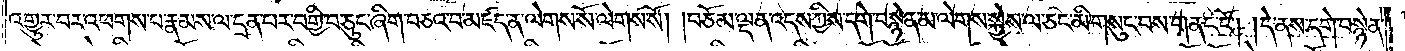འགྱུར་བར་འཕགས་པ་རྣམས་ལ་དྲན་པར་བགྱི་བ་ཅུང་ཞིག་བཅའ་བ་མཛད་ན་ལེགས་སོ་ལེགས་སོ། །བཅོམ་ལྡན་འདས་ཀྱིས་དགེ་བསྙེན་མ་ལེགས་སྐྱེས་ལ་ཅང་མི་གསུང་བས་གནང་ངོ༌། །དེ་ནས་དགེ་བསྙེན་
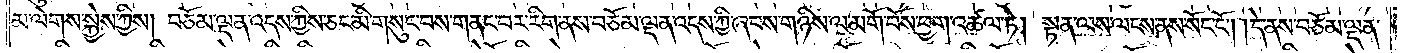མ་ལེགས་སྐྱེས་ཀྱིས། བཅོམ་ལྡན་འདས་ཀྱིས་ཅང་མི་གསུང་བས་གནང་བར་རིག་ནས་བཅོམ་ལྡན་འདས་ཀྱི་ཞབས་གཉིས་ལ་མགོ་བོས་ཕྱག་འཚལ་ཏེ། སྟན་ལས་ལངས་ནས་སོང་ངོ༌། །དེ་ནས་བཅོམ་ལྡན་
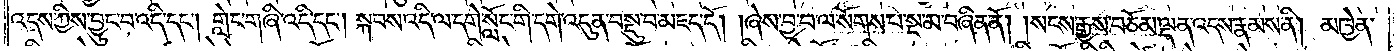འདས་ཀྱིས་བྱུང་བ་འདི་དང༌། གླེང་གཞི་འདི་དང༌། སྐབས་འདི་ལ་དགེ་སློང་གི་དགེ་འདུན་བསྡུ་བ་མཛད་དོ། །ཞེས་བྱ་བ་ལ་སོགས་པ་སྔ་མ་བཞིན་ནོ། །སངས་རྒྱས་བཅོམ་ལྡན་འདས་རྣམས་ནི། མཁྱེན་
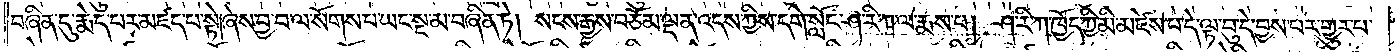བཞིན་དུ་རྨེད་པར་མཛད་པ་སྟེ། ཞེས་བྱ་བ་ལ་སོགས་པ་ཡང་སྔ་མ་བཞིན་ཏེ། སངས་རྒྱས་བཅོམ་ལྡན་འདས་ཀྱིས་དགེ་སློང་ཤ་རི་ཀ་ལ་རྨས་པ། ཤ་རི་ཀ་ཁྱོད་ཀྱི་མི་མཛེས་པ་དེ་ལྟ་བུ་དེ་བྱས་པར་གྱུར་པ་
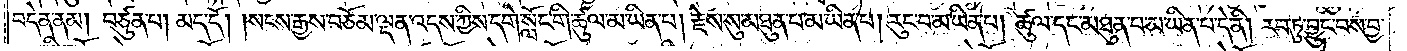བདེན་ནམ། བཙུན་པ། མད་དོ། །སངས་རྒྱས་བཅོམ་ལྡན་འདས་ཀྱིས་དགེ་སློང་གི་ཚུལ་མ་ཡིན་པ། རྗེས་སུ་མཐུན་པ་མ་ཡིན་པ། རུང་བ་མ་ཡིན་པ། ཚུལ་དང་མཐུན་པ་མ་ཡིན་པ་དེ་ནི། རབ་ཏུ་བྱུང་བས་བྱ་
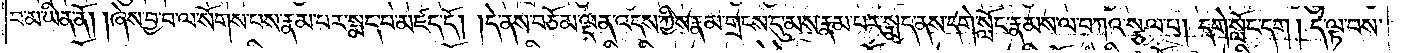བ་མ་ཡིན་ནོ། །ཞེས་བྱ་བ་ལ་སོགས་པས་རྣམ་པར་སྨད་པ་མཛད་དོ། །དེ་ནས་བཅོམ་ལྡན་འདས་ཀྱིས་རྣམ་གྲངས་དུ་མས་རྣམ་པར་སྨད་ནས་དགེ་སློང་རྣམས་ལ་བཀའ་སྩལ་པ། དགེ་སློང་དག །དེ་ལྟ་བས་
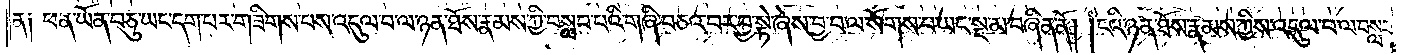ན༏ ཕན་ཡོན་བཅུ་ཡང་དག་པར་གཟིགས་པས་འདུལ་བ་ལ་ཉན་ཐོས་རྣམས་ཀྱི་བསླབ་པའི་གཞི་བཅའ་བར་བྱ་སྟེ་ཞེས་བྱ་བ་ལ་སོགས་པ་ཡང་སྔ་མ་བཞིན་ནོ། །ངའི་ཉན་ཐོས་རྣམས་ཀྱིས་འདུལ་བ་ལ་བསླབ་
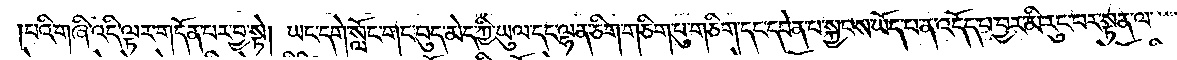པའི་གཞི་འདི་ལྟར་གདོན་པར་བྱ་སྟེ། ཡང་དགེ་སློང་གང་བུ་མེད་ཀྱི་ཡུལ་དང་ལྷན་ཅིག་གཅིག་པུ་གཅིག་དང་དབེན་པ་སྐྱབས་ཡོད་པ་ན་འདོད་པ་བྱར་མི་རུང་བར་སྟན་ལ་
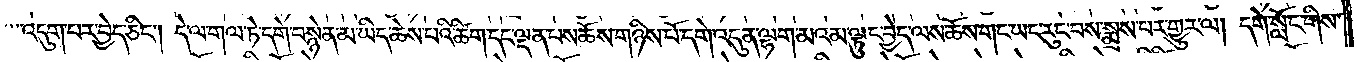འདུག་པར་བྱེད་ཅིང༌། དེ་ལ་གལ་ཏེ་དགེ་བསྙེན་མ་ཡིད་ཆེས་པའི་ཚིག་དང་ལྡན་པས་ཆོས་གཉིས་པོ་དགེ་འདུན་ལྷག་མའམ་ལྟུང་བྱེད་ལས་ཆོས་གང་ཡང་རུང་བས་སྨྲས་པར་གྱུར་ལ། དགེ་སློང་གིས་
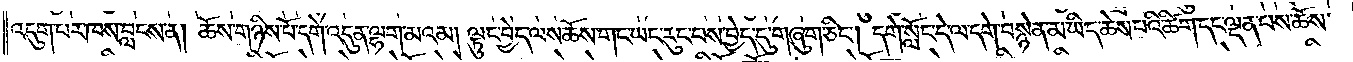འདུག་པར་ཁས་བླངས་ན། ཆོས་གཉིས་པོ་དགེ་འདུན་ལྷག་མའམ། ལྟུང་བྱེད་ལས་ཆོས་གང་ཡང་རུང་བས་བྱེད་དུ་གཞུག་ཅིང༌། དགེ་སློང་དེ་ལ་དགེ་བསྙེན་མ་ཡིད་ཆེས་པའི་ཚིག་དང་ལྡན་པས་ཆོས་
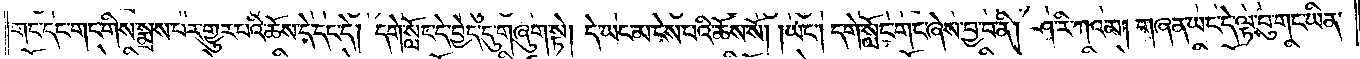གང་དང་གང་གིས་སྨྲས་པར་གྱུར་པའི་ཆོས་དེ་དང་དེ། དགེ་སློང་དེ་བྱེད་དུ་གཞུག་སྟེ། དེ་ཡང་མ་ངེས་པའི་ཆོས་སོ། །ཡང༌། དགེ་སློང་གང་ཞེས་བྱ་བ་ནི། ཤ་རི་ཀའམ། གཞན་ཡང་དེ་ལྟ་བུ་གང་ཡིན་
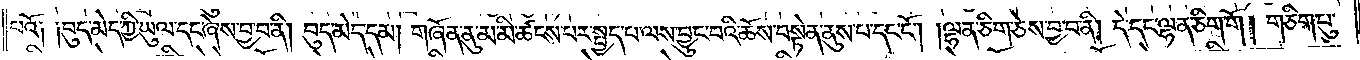བའོ༑ ༑བུད་མེད་ཀྱི་ཡུལ་དང་ཞེས་བྱ་བ་ནི། བུད་མེད་དམ། གཞོན་ནུ་མ་མི་ཚངས་པར་སྤྱད་པ་ལས་བྱུང་བའི་ཆོས་བསྟེན་ནུས་པ་དང་ངོ༌། །ལྷན་ཅིག་ཅེས་བྱ་བ་ནི། དེ་དང་ལྷན་ཅིག་གོ། གཅིག་པུ་
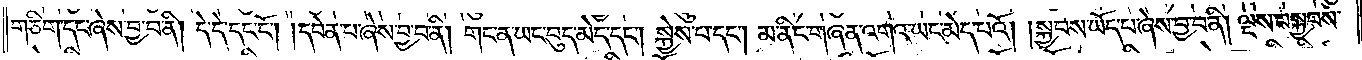གཅིག་དང་ཞེས་བྱ་བ་ནི། དེ་དེ་དང་ངོ༌། །དབེན་པ་ཞེས་བྱ་བ་ནི། གང་ན་ཡང་བུད་མེད་དང༌། སྐྱེས་པ་དང༌། མ་ནིང་གཞན་འགའ་ཡང་མེད་པའོ། །སྐྱབས་ཡོད་པ་ཞེས་བྱ་བ་ནི། ལྔས་བསྐྱབས་
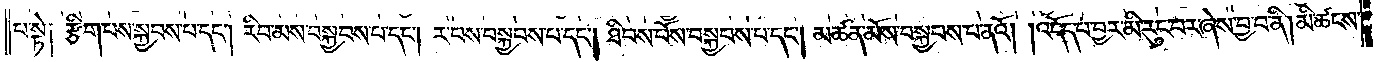པ་སྟེ། རྩིག་པ་སྐྱབས་པ་དང༌། རིབ་མས་བསྐྱབས་པ་དང༌། ར་བས་བསྐྱབས་པ་དང༌། ཐིབས་པོས་བསྐྱབས་པ་དང༌། མཚན་མོས་བསྐྱབས་པ་ནའོ། །འདོད་པ་བྱར་མི་རུང་བར་ཞེས་བྱ་བ་ནི། མི་ཚངས་
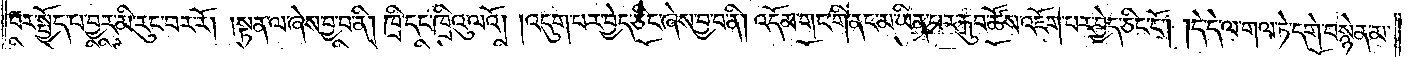པར་སྤྱོད་པ་བྱར་མི་རུང་བར་རོ། །སྟན་ལ་ཞེས་བྱ་བ་ནི། ཁྲི་དང་ཁྲིའུ་ལའོ། །འདུག་པར་བྱེད་ཅིང་ཞེས་བྱ་བ་ནི། འདོམ་གང་གི་ནང་མ་ཡིན་པར་རྐུབ་ཚོས་འཇོག་པར་བྱེད་ཅིང་ངོ༌། །དེ་དེ་ལ་གལ་ཏེ་དགེ་བསྙེན་མ་
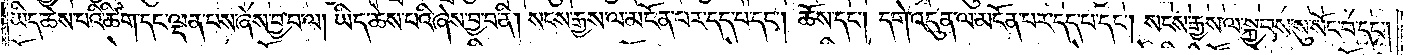ཡིད་ཆེས་པའི་ཚིག་དང་ལྡན་པས་ཞེས་བྱ་བ་ལ། ཡིད་ཆེས་པའི་ཞེས་བྱ་བ་ནི། སངས་རྒྱས་ལ་མངོན་པར་དད་པ་དང༌། ཆོས་དང༌། དགེ་འདུན་ལ་མངོན་པར་དད་པ་དང༌། སངས་རྒྱས་ལ་སྐྱབས་སུ་སོང་བ་དང༌།
